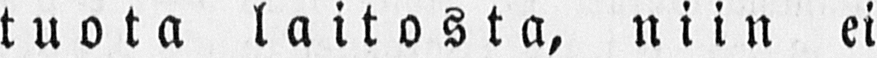tuota laitosta, niin ei
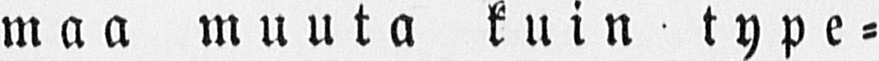maa muuta k u i n type-
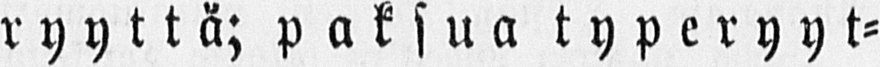ryyttä; paksua typeryyt-
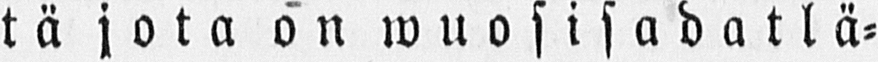tä jota on wuosisadat lä-
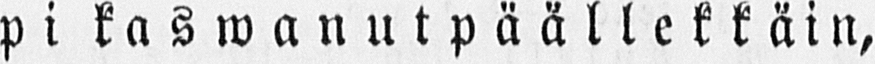pi kaswanut päällekkäin,
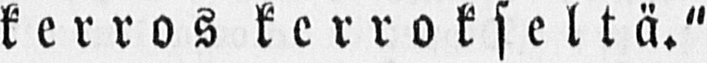kerros kerrokseltä."
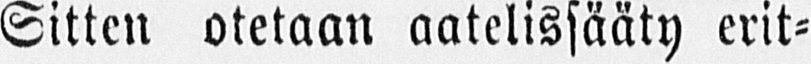Sitten otetaan aatelissääty erit-
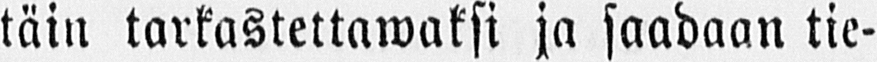täin tarkastettawaksi ja saadaan tie-
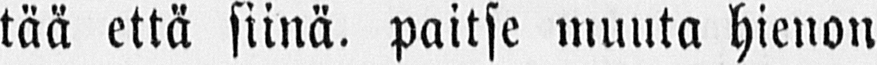tää että siinä, paitse muuta hienon
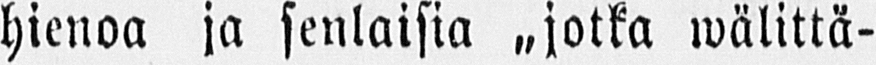hienoa ja senlaisia ˶jotka wälittä-
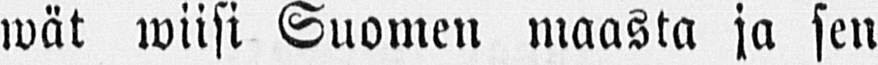wät wiisi Suomen maasta ja sen
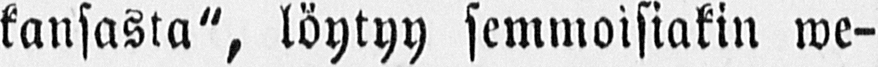kansasta", löytyy semmoisiakin we-
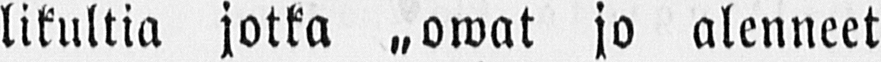likultia jotka ˶owat jo alenneet
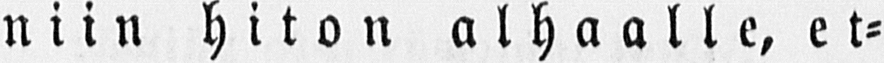niin hiton alhaalle, et-
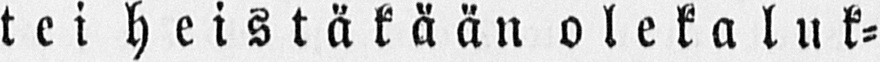tei heistäkään ole kaluk-
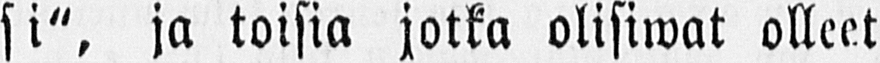si", ja toisia jotka olisiwat olleet
